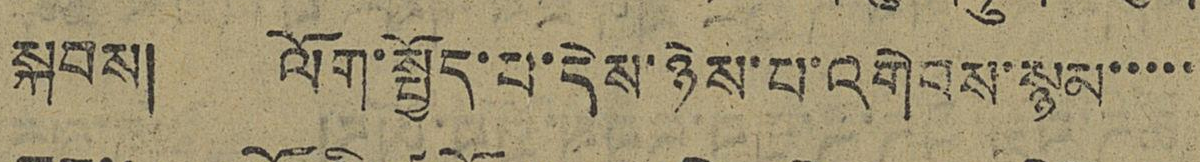སྐབས། ལོག་སྤྱོད་པ་དེས་ཉེས་པ་འགེབས་སྙམ་་་་་
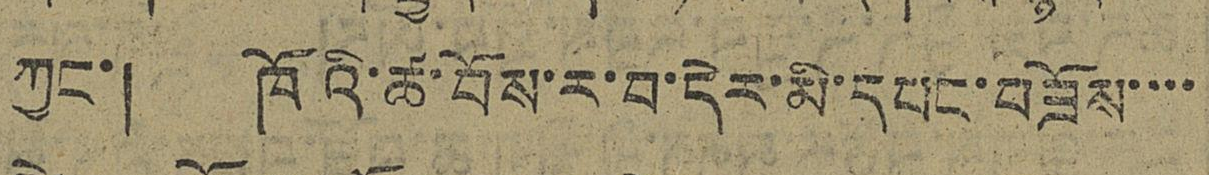ཀྱང་། ཁོའི་ཚ་བོས་ར་བ་དེར་མི་དཔང་བཟོས་་་་་
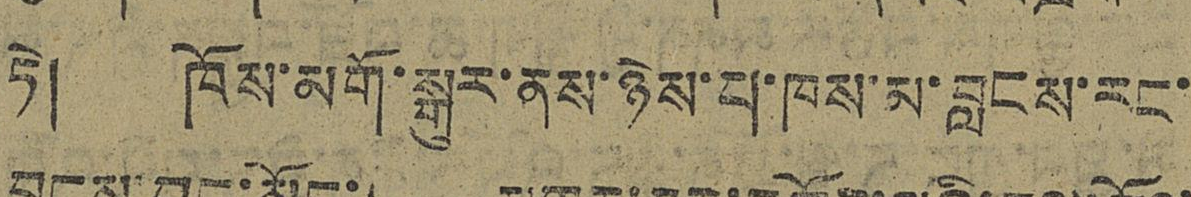ཏེ། ཁོས་མགོ་སྒུར་ནས་ཉེས་པ་ཁས་མ་བླངས་རང་
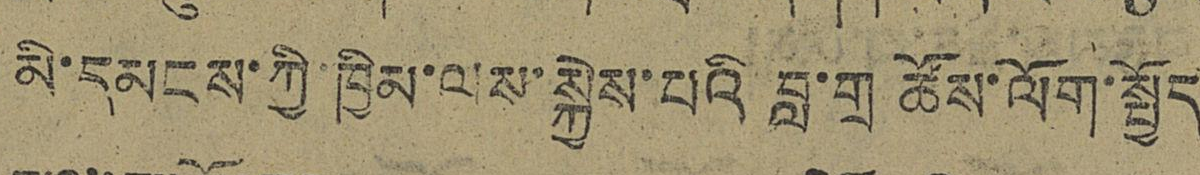མི་དམངས་ཀྱི་ཁྱིམ་ལས་སྐྱེས་པའི བླ་གྲ ཚོས་ལོག་སྤྱོད
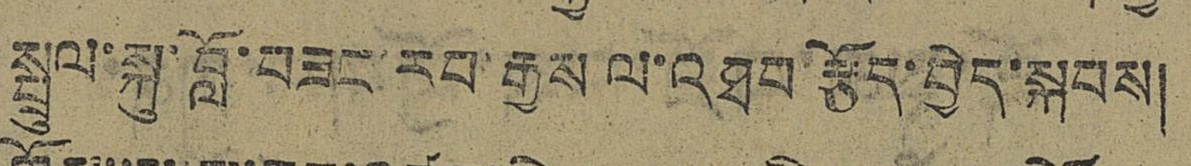སྤྲུལ་སྐུ་བློ་བཟང་རབ་རྒྱས ལ་འཐབ་རྩོད་བྱེད་སྐབས།
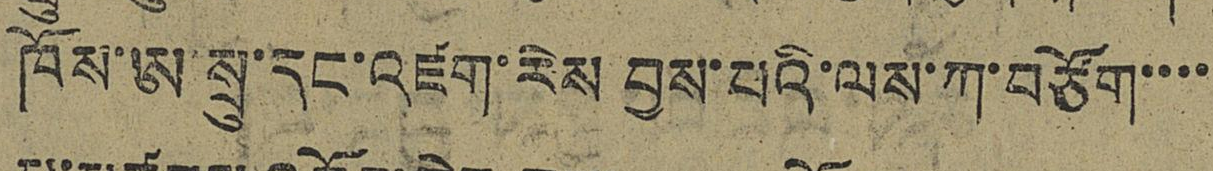ཁོས་ཨ་སྲུ་དང་འཛག་རེས བྱས་པའི་ལས་ཀ་བཙོག་་་་
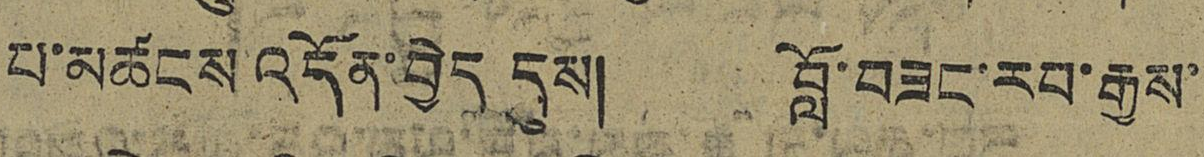པ་མཚངས་འདོན་བྱེད དུས། བློ་བཟང་རབ་རྒྱས་
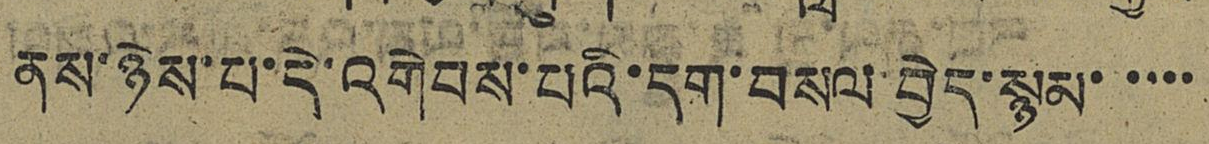ནས་ཉེས་པ་དེ་འགེབས་པའི་དག་བསལ་བྱེད་སྙམ་་་་་
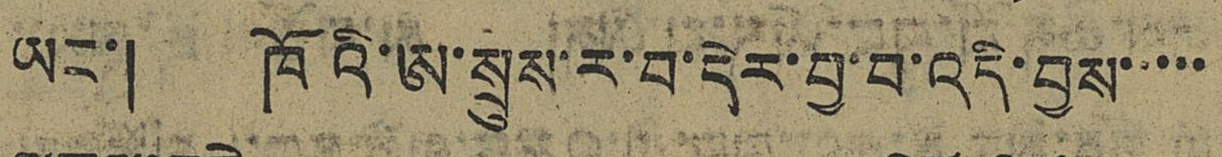ཡང་། ཁོའི་ཨ་སྲས་རི་བ་དེར་བྱ་བ་འདི་བས་་་་་
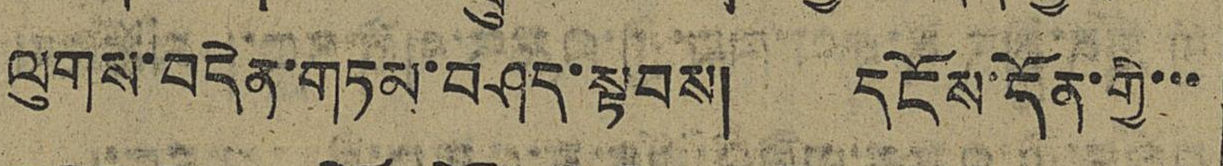ལུགས་བདེན་གཏམ་བཤད་སྟབས། དངོས་དོན་གྱི་་་
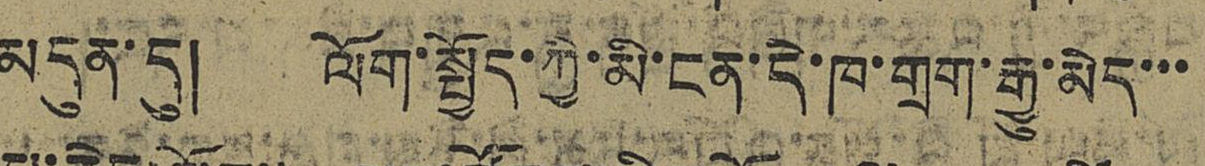མདུན་དུ། ལོག་སྤྱོད་ཀྱི་མི་ངན་དེ་ཁ་གྲག་རྒྱུ་མེད་་་
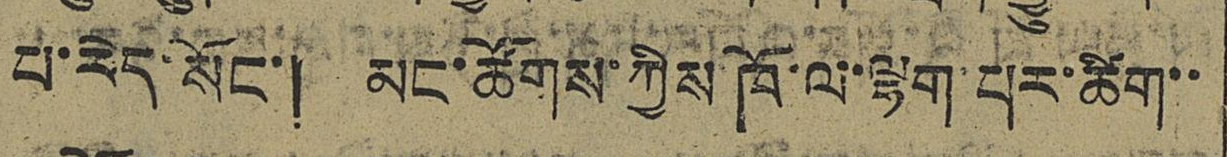པ་རེད་སོང་། མང་ཚོགས་ཀྱིས ཁོ་ལ་ལྷག་པར་ཚིག་་
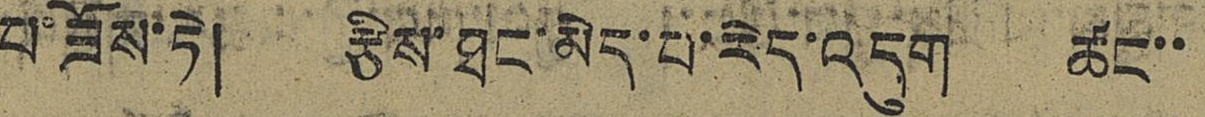བ་ཟོས་ཏེ། རྩིས་ཐང་མེད་པ་རེད་འདུག ཚང་་
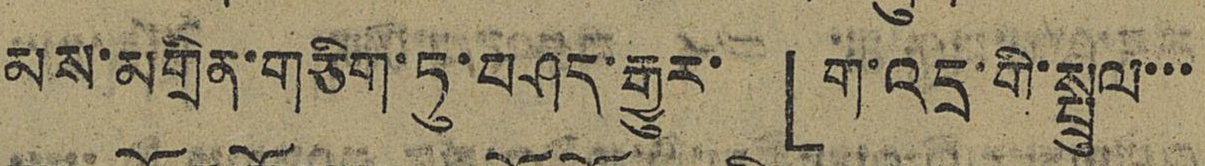མས་མགྲིན་གཅིག་ཏུ་བཤད་རྒྱུར་ 「ག་འདྲ་གྲི་སྤྲུལ་་
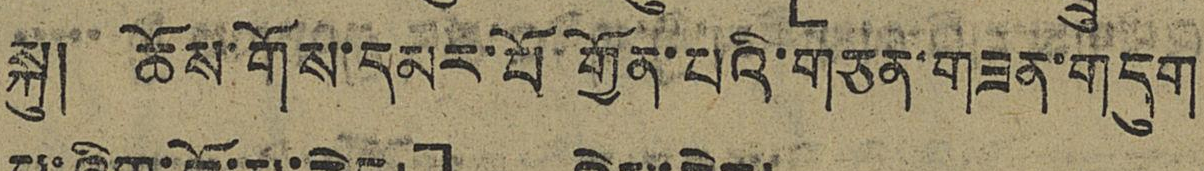སྐུ། ཆོས་གོས་དམར་པོ་གྱོན་པའི་གཙན་གཟན་གདུག
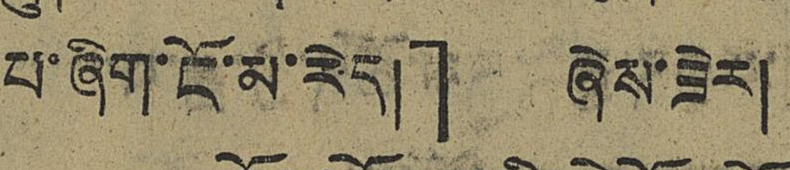པ་ཞིག་ངོ་མ་རེད།」 ཞེས་ཟེར།
